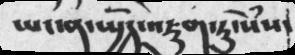ཡང་ན་སྤྱོད་འཇུག་ཏུ་སེཾས་
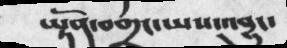ཡྟོན་བགྲང་ཡས་འབྱུང་
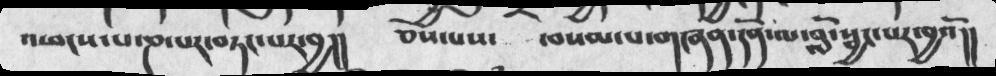འཕངས་པ་ཎ་པར་བཏང་པར་བྱ།།  ཅེས་པས༴  ་བསམ་པ་གཞན་དོན་ལ་བློ་སྦྱང་པར་བྱའོ།།
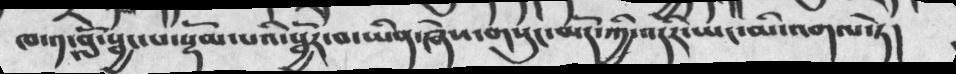ཁ་༡་བློ་སྦྱང་པ་སྡོམ་པའི་སྦྱོར་བ་ཡིན་ཞེས་གསུང་མོད་ཀྱི་འདིར་ཡང་མི་འགལ་ཏེ།
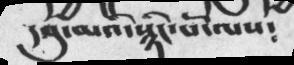དབུ་མའི་སྙིང་པོ་ལས༴
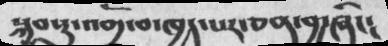སྐྱབསུ་འགྲོ་བ་ཁྱད་པར་ཅན་བྱ་ཞིང༴
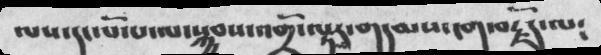ལས་དང་པོ་པ་ལ་སྐྱབས་འགྲོ་ལྟར་གདམས་ངག་བརྗོད་ལ༴
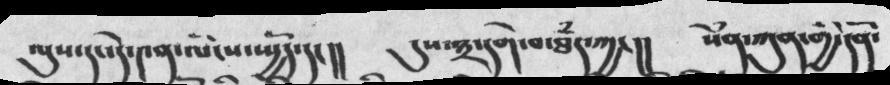ལུས་དང་དེ་༤ན་ལོངས་སྤྱོད་དང།།  དུས་༣་དགེ་བ་ཐཾད་ཀྱང།།  སེཾན་ཀུན་གྱི་དོན་
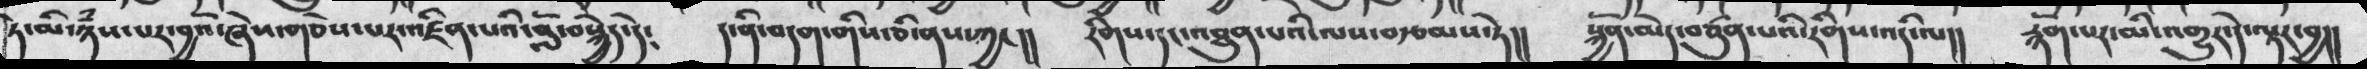ཏེ་མི་ཉཾས་པར་བྱའོ་ཞེས་གཅེས་པར་འཛིན་པའི་བློ་བསྐྱེད་དེ༴  ད་ནི་བདག་གིས་ཅི་ནས་ཀྱང།།  རིགས་དང་འཐུན་པའི་ལས་བརྩམས་ཏེ།།   སྐྱོན་མེད་བཙུན་པའི་རིགས་འདི་ལ།།  རྙོག་པར་མི་འགྱུར་དེ་ལྟར་བྱ།།
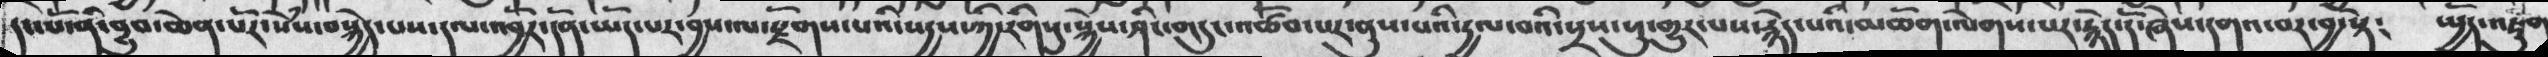དང་པོ་ནི་བྱུབ་ཆེན་པོར་སེཾས་བསྐྱེད་པས་དལ་འབྱོར་དོན་ཡོད་པར་བྱས་ལ་རྫོགས་པའི་སདྱས་ཀྱི་རིགསུ་སྐྱེས་ཤིང་གདུང་འཚོབ་པར་ནུས་པའི་དྱལ་བའི་སྲས་སུ་གྱུར་པས་རྙེད་པའི་མཆོག་ལེགས་པར་རྙེད་དོ་ཞེས་དགའ་བར་བྱ་སྟེ༴  སྤྱོད་འཇུག
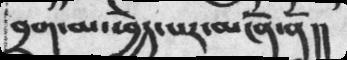བྲག་མ་ཕྱེད་པར་མངོན་ནོ།།
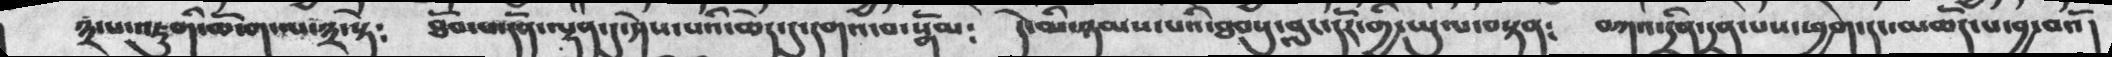༣་པ་འཇུགི་ཆོ་ག་ལ་༣་སྟེ༴  ཐོབ་པ་དོན་ལྡན་དུ་ཤེས་པའི་ཆེད་དུ་དགའ་བ་སྒོམ༴  དེ་མི་ཉམས་པའི་ཐབསུ་བླང་དོར་གྱི་ཡུལ་བསྟན༴  བཀའ་དྲིན་དྲན་པས་ཕྱག་དང་མཆོད་པ་བྱ་བའོ།
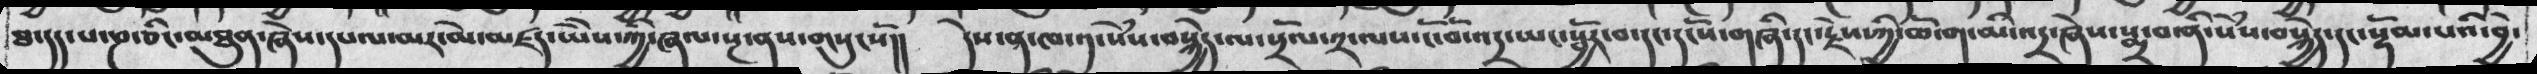ཐ་དད་པ་ཎ་ཅིང་མཐུན་ཞེས་དཔལ་མར་མེ་མཛད་ཡེེས་ཀྱི་ཞལ་སྔ་ནས་གསུངསོ།།  དེས་ན་ཁ་༡་སེཾས་བསྐྱེད་ལ་སྲོལ་༢་ལས་ངོ་བོ་འདྲ་ཡང་སྦྱོར་བ་དང་དངོས་གཞི་དང་རྗེས་ཀྱི་ཆོ་ག་མི་འདྲ་ཞེས་སྨྲ་བ་ནི་སེཾས་བསྐྱེད་དང་སྡོམ་པའི་བྱེ་
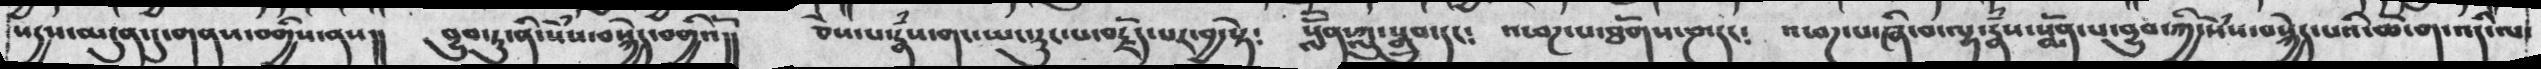སདྱས་མདུན་དུ་གནས་བགྱིས་ནས།    བྱུབ་ཏུ་ནི་སེཾས་བསྐྱེད་བགྱིའོ།།  ཅེས་པ་རྣཾས་གང་ཡང་རུང་པ་བརྗོད་པར་བྱ་སྟེ༴  སློོན་ཀླུ་སྒྲུབ་དང༴  འཕཌ་པ་ཐོགས་ཎ་དང༴  འཕཌ་པ་ཞི་བ་ལྷ་རྣཾས་སྨོན་པ་བྱུབ་ཀྱི་སེཾས་བསྐྱེད་པའི་ཆོ་ག་འདི་ལ་
